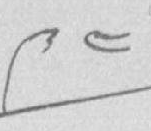༩༤
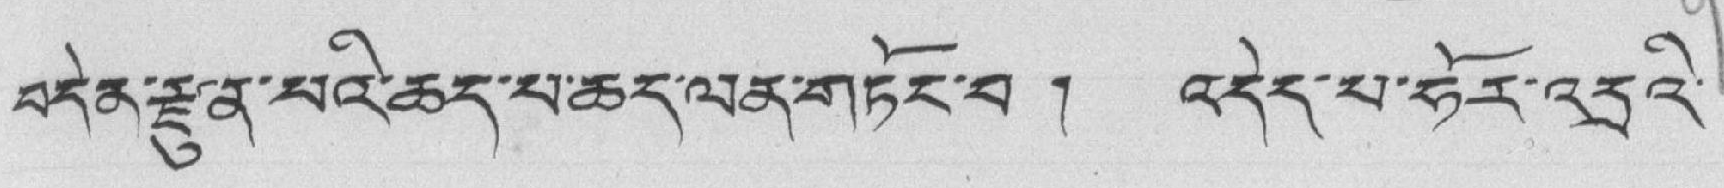བདེན་རྫུན་པའི་ཆད་པ་ཆད་ལན་གཏོང་བ ། འདེད་པ་ཧོར་འདྲའི་
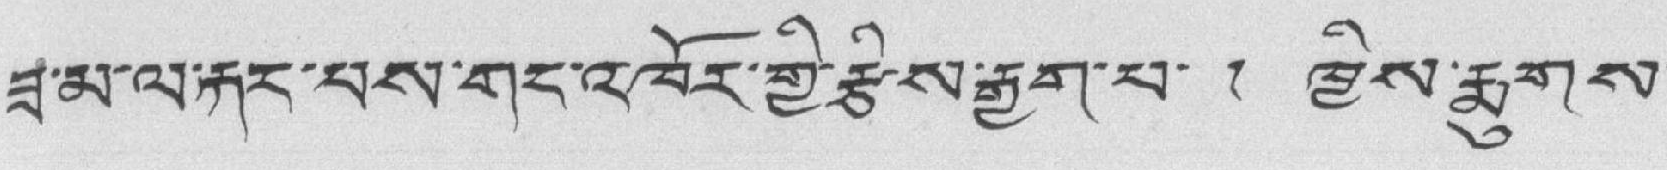ཟ་མ་ལ་རྐང་པས་གང་འཁོར་གྱི་རྩིས་རྒྱག་པ་ ། ཁྱིས་རྨུགས་
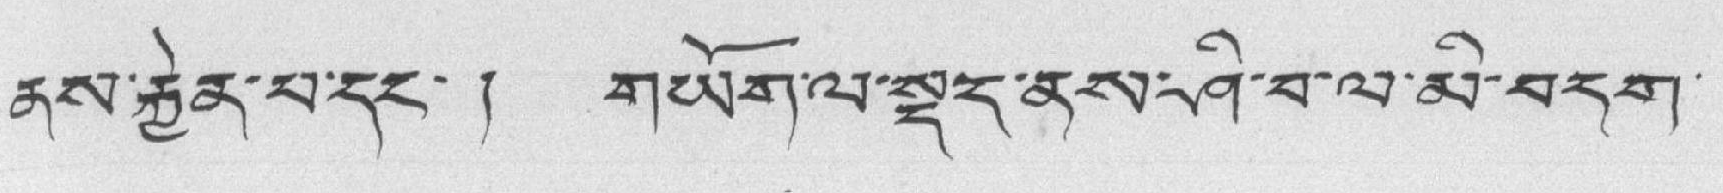ནས་རྐྱེན་པ་དང་ ། གཡོག་ལ་སྡད་ནས་ཤི་བ་ལ་མི་བདག་
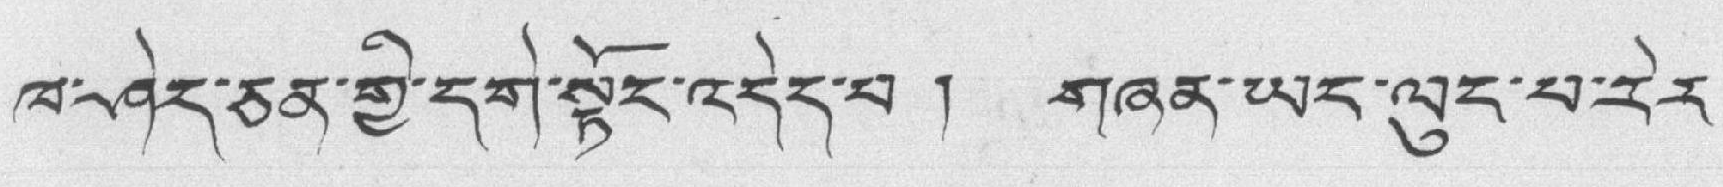ཁ་ཤེད་ཅན་གྱི་དགེ་སྟོང་འདེར་པ། གཞན་ཡར་ལུང་པ་རེར་
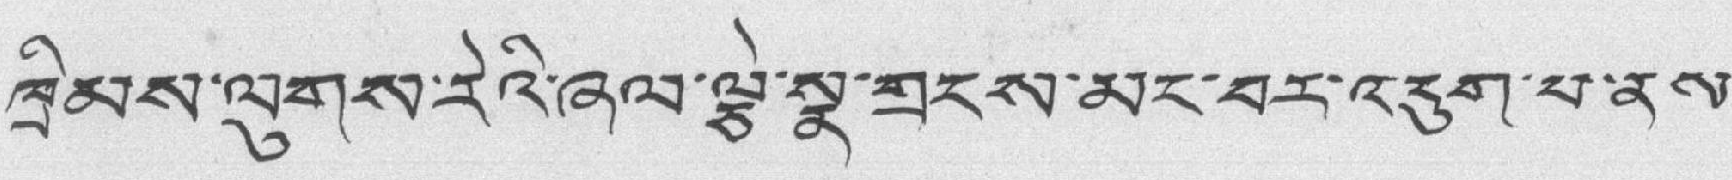ཁྲིམས་ལུགས་རེའི་ཞལ་ལྕེ་སྣ་གྲངས་མང་བར་འདུག་པ་ནས་
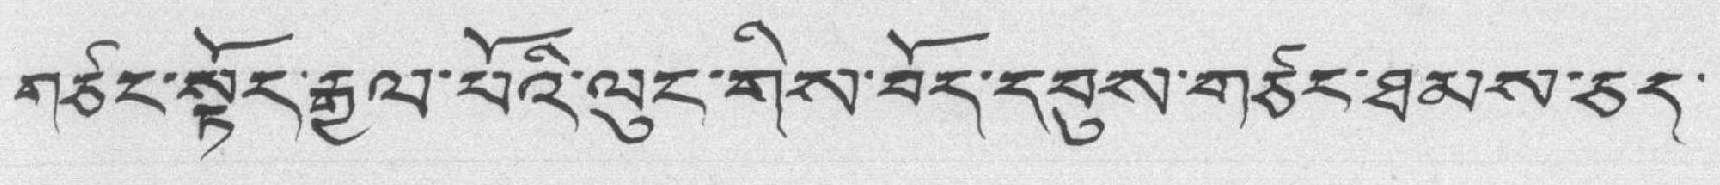གཅིང་སྟོར་རྒྱལ་པོའི་ལུང་གིས་བོད་དབུས་གཙིང་ཐམས་ཅད་
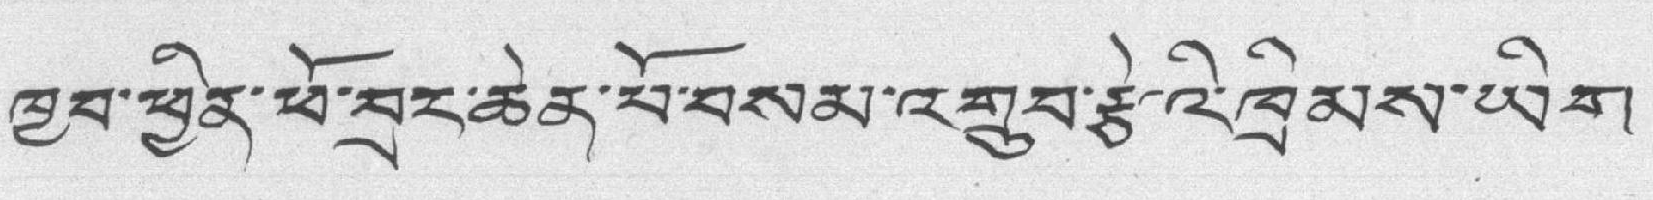ཁྱབ་ཕྱིན་ཕོ་བྲང་ཆེན་པོ་བསམ་འགྲུབ་རྩེའི་ཁྲིམས་ཡིག་
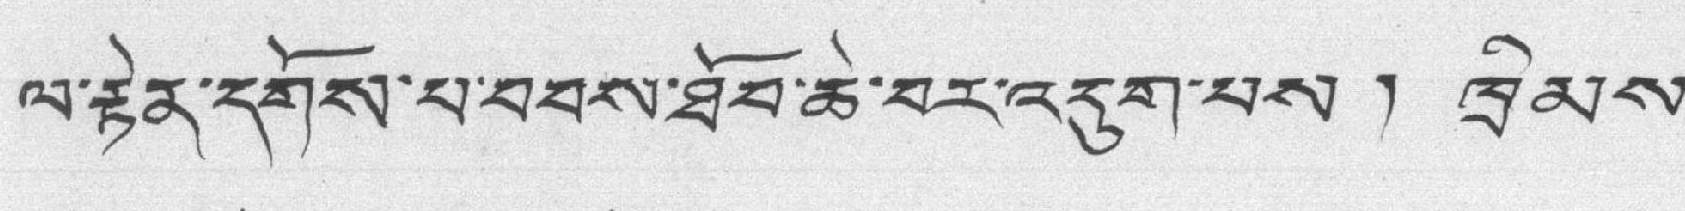ལ་རྟེན་དགོས་པ་བབས་ཐོབ་ཆེ་བར་འདུག་པས ། ཁྲིམས་
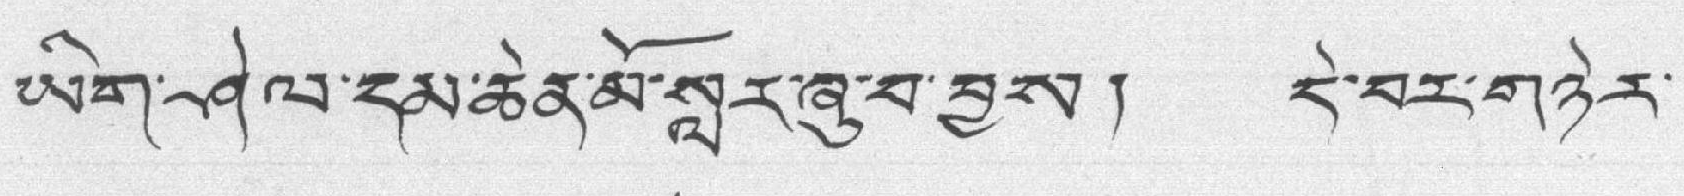ཡིག་ཤེལ་དམ་ཆེན་མོ་སླར་ཞུ་བ་བྱས། དེ་བར་གཉེར་
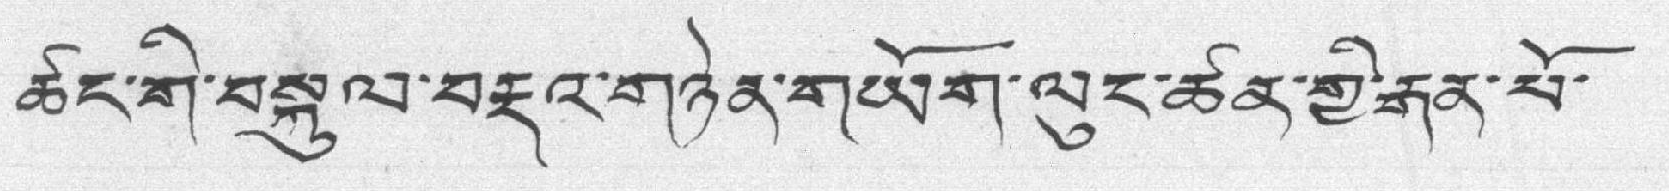ཚང་གི་བསྐུལ་བརྡའ་གཉེན་གཡོག་ལུང་ཚན་གྱི་རྒན་པོ་
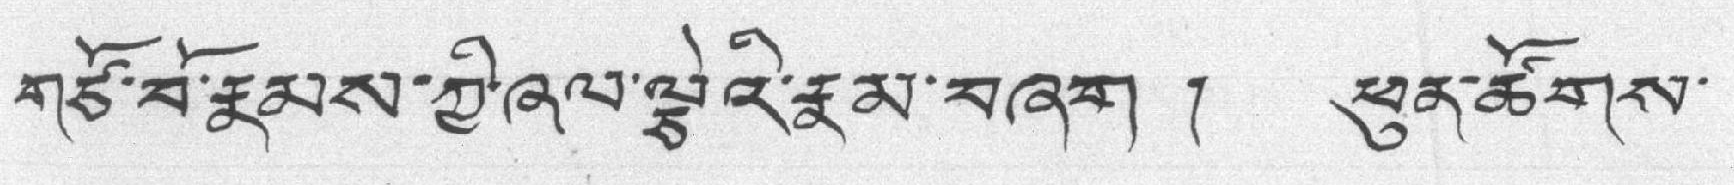གཙོ་བོ་རྣམས་ཀྱི་ཞལ་ལྕེའི་རྣམ་བཞག ། ཕུན་ཚོགས་
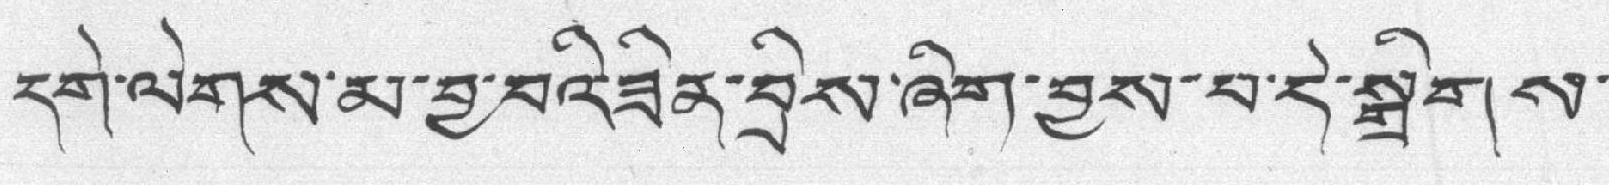དགེ་ལེགས་མ་བྱ་བའི་ཟིན་བྲིས་ཞིག་བྱས་པ་དེ་སྒྲིགས་
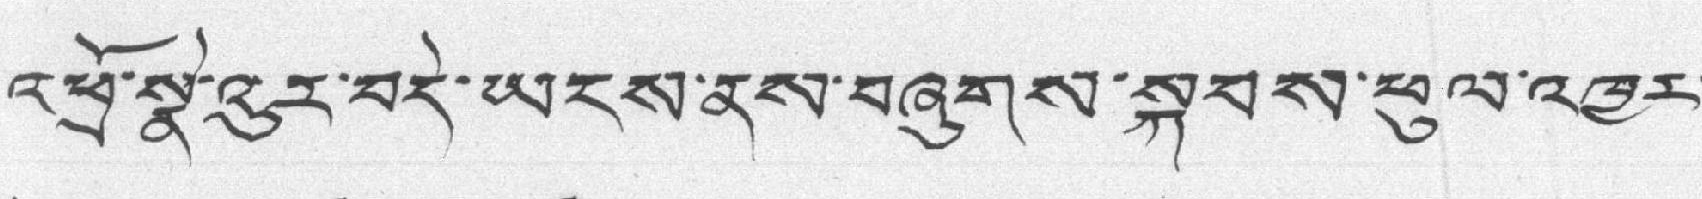འཕྲོ་སྣེ་འུར་བདེ་ཡངས་ནས་བཞུགས་སྐབས་ཕུལ་འཁྱར་
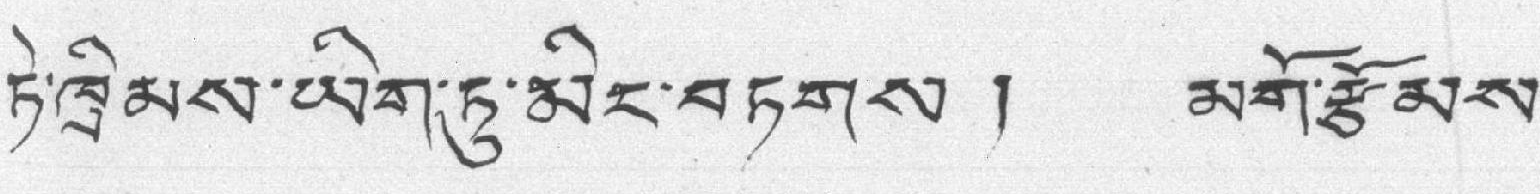ཏེ་ཁྲིམས་ཡིག་ཏུ་མིང་བཏགས ། མགོ་རྩོམས་
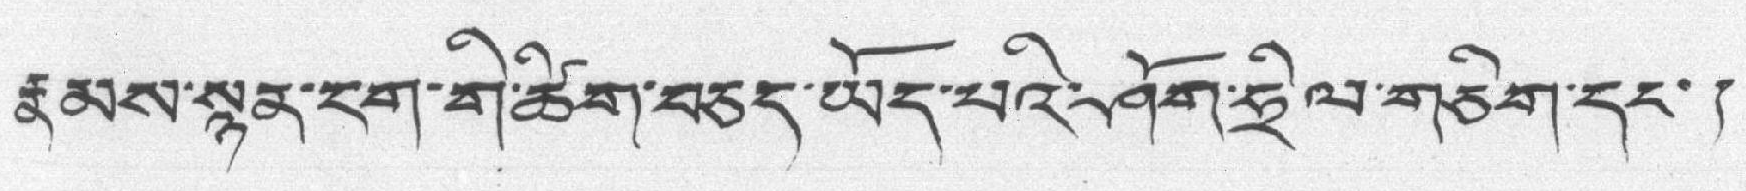རྣམས་སྙན་དག་གི་ཚིག་བཅད་ཡོད་པའི་ཤོག་ཧྲིལ་གཅིག་དང་།
